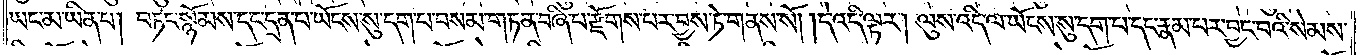ཡང་མ་ཡིན་པ། བཏང་སྙོམས་དང་དྲན་པ་ཡོངས་སུ་དག་པ་བསམ་གཏན་བཞི་པ་རྫོགས་པར་བྱས་ཏེ་གནས་སོ། །དེ་འདི་ལྟར། ལུས་འདི་ལ་ཡོངས་སུ་དག་པ་དང་རྣམ་པར་བྱང་བའི་སེམས་
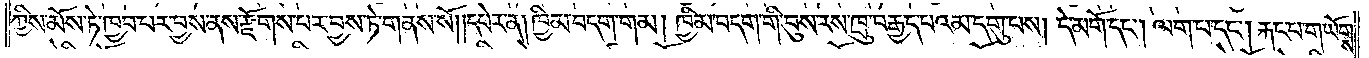ཀྱིས་མོས་ཏེ་ཁྱབ་པར་བྱས་ནས་རྫོགས་པར་བྱས་ཏེ་གནས་སོ། །དཔེར་ན། ཁྱིམ་བདག་གམ། ཁྱིམ་བདག་གི་བུས་རས་ཁྲུ་བརྒྱད་པའམ་དགུ་པས། དེ་མགོ་དང༌། ལག་པ་དང༌། རྐང་པ་གཡོགས་
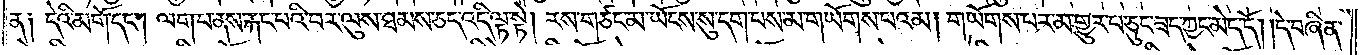ན། དེའི་མགོ་དང༌། ལག་པ་ནས་རྐང་པའི་བར་ལུས་ཐམས་ཅད་འདི་ལྟ་སྟེ། རས་གཙང་མ་ཡོངས་སུ་དག་པས་མ་གཡོགས་པའམ། གཡོགས་པར་མ་གྱུར་པ་ཅུང་ཟད་ཀྱང་མེད་དོ། །དེ་བཞིན་
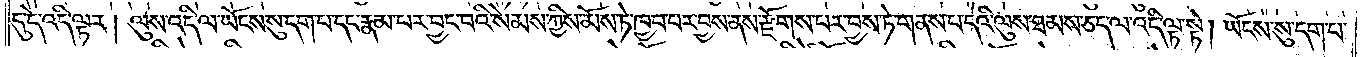དུ་དེ་འདི་ལྟར། ལུས་འདི་ལ་ཡོངས་སུ་དག་པ་དང་རྣམ་པར་བྱང་བའི་སེམས་ཀྱིས་མོས་ཏེ་ཁྱབ་པར་བྱས་ནས་རྫོགས་པར་བྱས་ཏེ་གནས་པ་དེའི་ལུས་ཐམས་ཅད་ལ་འདི་ལྟ་སྟེ། ཡོངས་སུ་དག་པ་
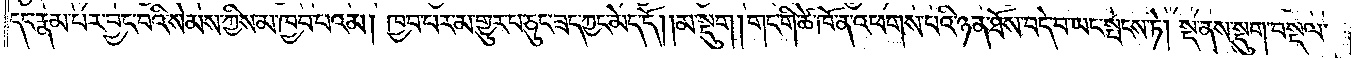དང་རྣམ་པར་བྱང་བའི་སེམས་ཀྱིས་མ་ཁྱབ་པའམ། ཁྱབ་པར་མ་གྱུར་པ་ཅུང་ཟད་ཀྱང་མེད་དོ། །མ་སྡུག །གང་གི་ཚེ་ཁོ་ན་འཕགས་པའི་ཉན་ཐོས་བདེ་བ་ཡང་སྤངས་ཏེ། སྔ་ནས་སྡུག་བསྔལ་
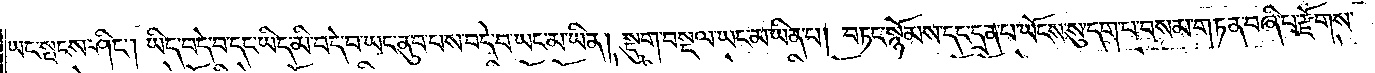ཡང་སྤངས་ཤིང༌། ཡིད་བདེ་བ་དང་ཡིད་མི་བདེ་བ་ཡང་ནུབ་པས་བདེ་བ་ཡང་མ་ཡིན། སྡུག་བསྔལ་ཡང་མ་ཡིན་པ། བཏང་སྙོམས་དང་དྲན་པ་ཡོངས་སུ་དག་པ་བསམ་གཏན་བཞི་པ་རྫོགས་
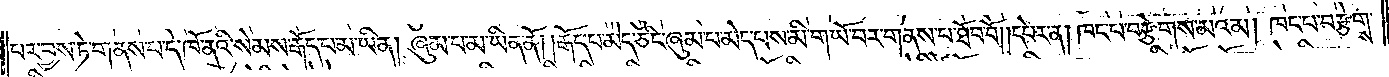པར་བྱས་ཏེ་གནས་པ་དེ་ཁོ་ནའི་སེམས་རྒོད་པ་མ་ཡིན། ཞུམ་པ་མ་ཡིན་ནོ། །རྒོད་པ་མེད་ཅིང་ཞུམ་པ་མེད་པས་མི་གཡོ་བར་གནས་པ་ཐོབ་པོ། །དཔེར་ན། ཁང་པ་བརྩེགས་མའམ། ཁང་པ་བརྩེགས་
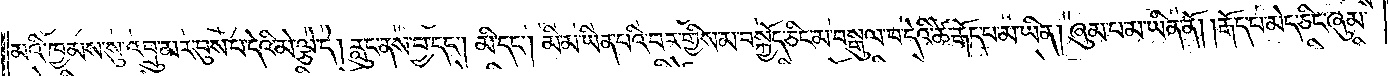མའི་ཁྱམས་སུ་འབྲུ་མར་བུས་པ་དེའི་མེ་ལྕེ་དེ། རླུང་ནས་བྱ་དང༌། མི་དང༌། མི་མ་ཡིན་པའི་བར་གྱིས་མ་བསྐྱོད་ཅིང་མ་བསྒུལ་བ་དེའི་ཚེ་རྒོད་པ་མ་ཡིན། ཞུམ་པ་མ་ཡིན་ནོ། །རྒོད་པ་མེད་ཅིང་ཞུམ་
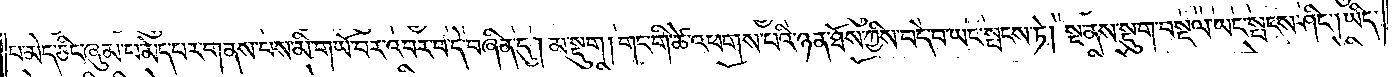པ་མེད་ཅིང་ཞུམ་པ་མེད་པར་གནས་པས་མི་གཡོ་བར་འབར་བ་དེ་བཞིན་དུ། མ་སྡུག །གང་གི་ཚེ་འཕགས་པའི་ཉན་ཐོས་ཀྱིས་བདེ་བ་ཡང་སྤངས་ཏེ། སྔ་ནས་སྡུག་བསྔལ་ཡང་སྤངས་ཤིང༌། ཡིད་
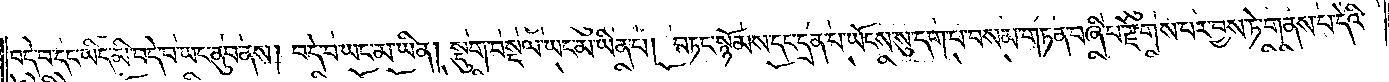བདེ་བ་དང་ཡིད་མི་བདེ་བ་ཡང་ནུབ་ནས། བདེ་བ་ཡང་མ་ཡིན། སྡུག་བསྔལ་ཡང་མ་ཡིན་པ། བཏང་སྙོམས་དང་དྲན་པ་ཡོངས་སུ་དག་པ་བསམ་གཏན་བཞི་པ་རྫོགས་པར་བྱས་ཏེ་གནས་པ་དེའི་
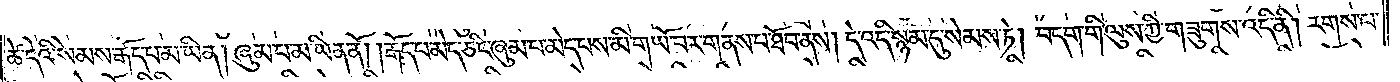ཚེ་དེའི་སེམས་རྒོད་པ་མ་ཡིན། ཞུམ་པ་མ་ཡིན་ནོ། །རྒོད་པ་མེད་ཅིང་ཞུམ་པ་མེད་པས་མི་གཡོ་བར་གནས་པ་ཐོབ་ནས། དེ་འདི་སྙམ་དུ་སེམས་ཏེ། བདག་གི་ལུས་ཀྱི་གཟུགས་འདི་ནི། རགས་པ་
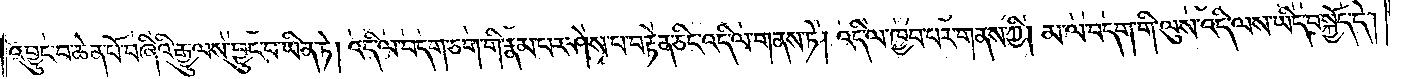འབྱུང་བ་ཆེན་པོ་བཞིའི་རྒྱུ་ལས་བྱུང་བ་ཡིན་ཏེ། འདི་ལ་བདག་ཅག་གི་རྣམ་པར་ཤེས་པ་བརྟེན་ཅིང་འདི་ལ་གནས་ཏེ། འདི་ལ་ཁྱབ་པར་གནས་ཀྱི། མ་ལ་བདག་གི་ལུས་འདི་ལས་ཡིད་བསྐྱོད་དེ།
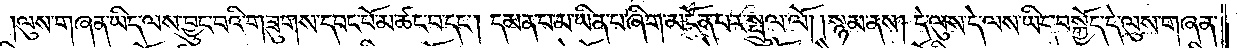།ལུས་གཞན་ཡིད་ལས་བྱུང་བའི་གཟུགས་དབང་པོ་མ་ཚང་བ་དང༌། དམན་པ་མ་ཡིན་པ་ཞིག་མངོན་པར་སྤྲུལ་ལོ། །སྙམ་ནས། དེ་ལུས་དེ་ལས་ཡིད་བསྐྱོད་དེ་ལུས་གཞན་
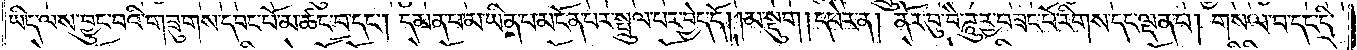ཡིད་ལས་བྱུང་བའི་གཟུགས་དབང་པོ་མ་ཚང་བ་དང༌། དམན་པ་མ་ཡིན་པ་མངོན་པར་སྤྲུལ་པར་བྱེད་དོ། །མ་སྡུག །དཔེར་ན། ནོར་བུ་བཻ་ཌཱུརྱ་བཟང་པོ་རིགས་དང་ལྡན་པ། གསལ་བ་དང་དྲི་
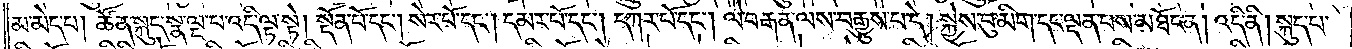མ་མེད་པ། ཚོ་ན་སྐུད་སྣ་ལྔ་པ་འདི་ལྟ་སྟེ། སྔོན་པོ་དང༌། སེར་པོ་དང༌། དམར་པོ་དང༌། དཀར་པོ་དང༌། ལེ་བརྒན་ལས་བརྒྱུས་པ་དེ། སྐྱེས་བུ་མིག་དང་ལྡན་པས་མཐོང་ན། འདི་ནི། སྐུད་པ་
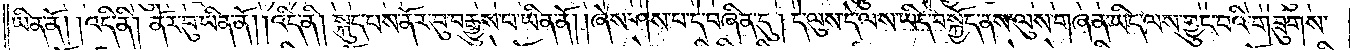ཡིན་ནོ། །འདི་ནི། ནོར་བུ་ཡིན་ནོ། །འདི་ནི། སྐུད་པས་ནོར་བུ་བརྒྱུས་པ་ཡིན་ནོ། །ཞེས་ཤེས་པ་དེ་བཞིན་དུ། དེ་ལུས་དེ་ལས་ཡིད་བསྐྱོད་ནས་ལུས་གཞན་ཡིད་ལས་བྱུང་བའི་གཟུགས་
